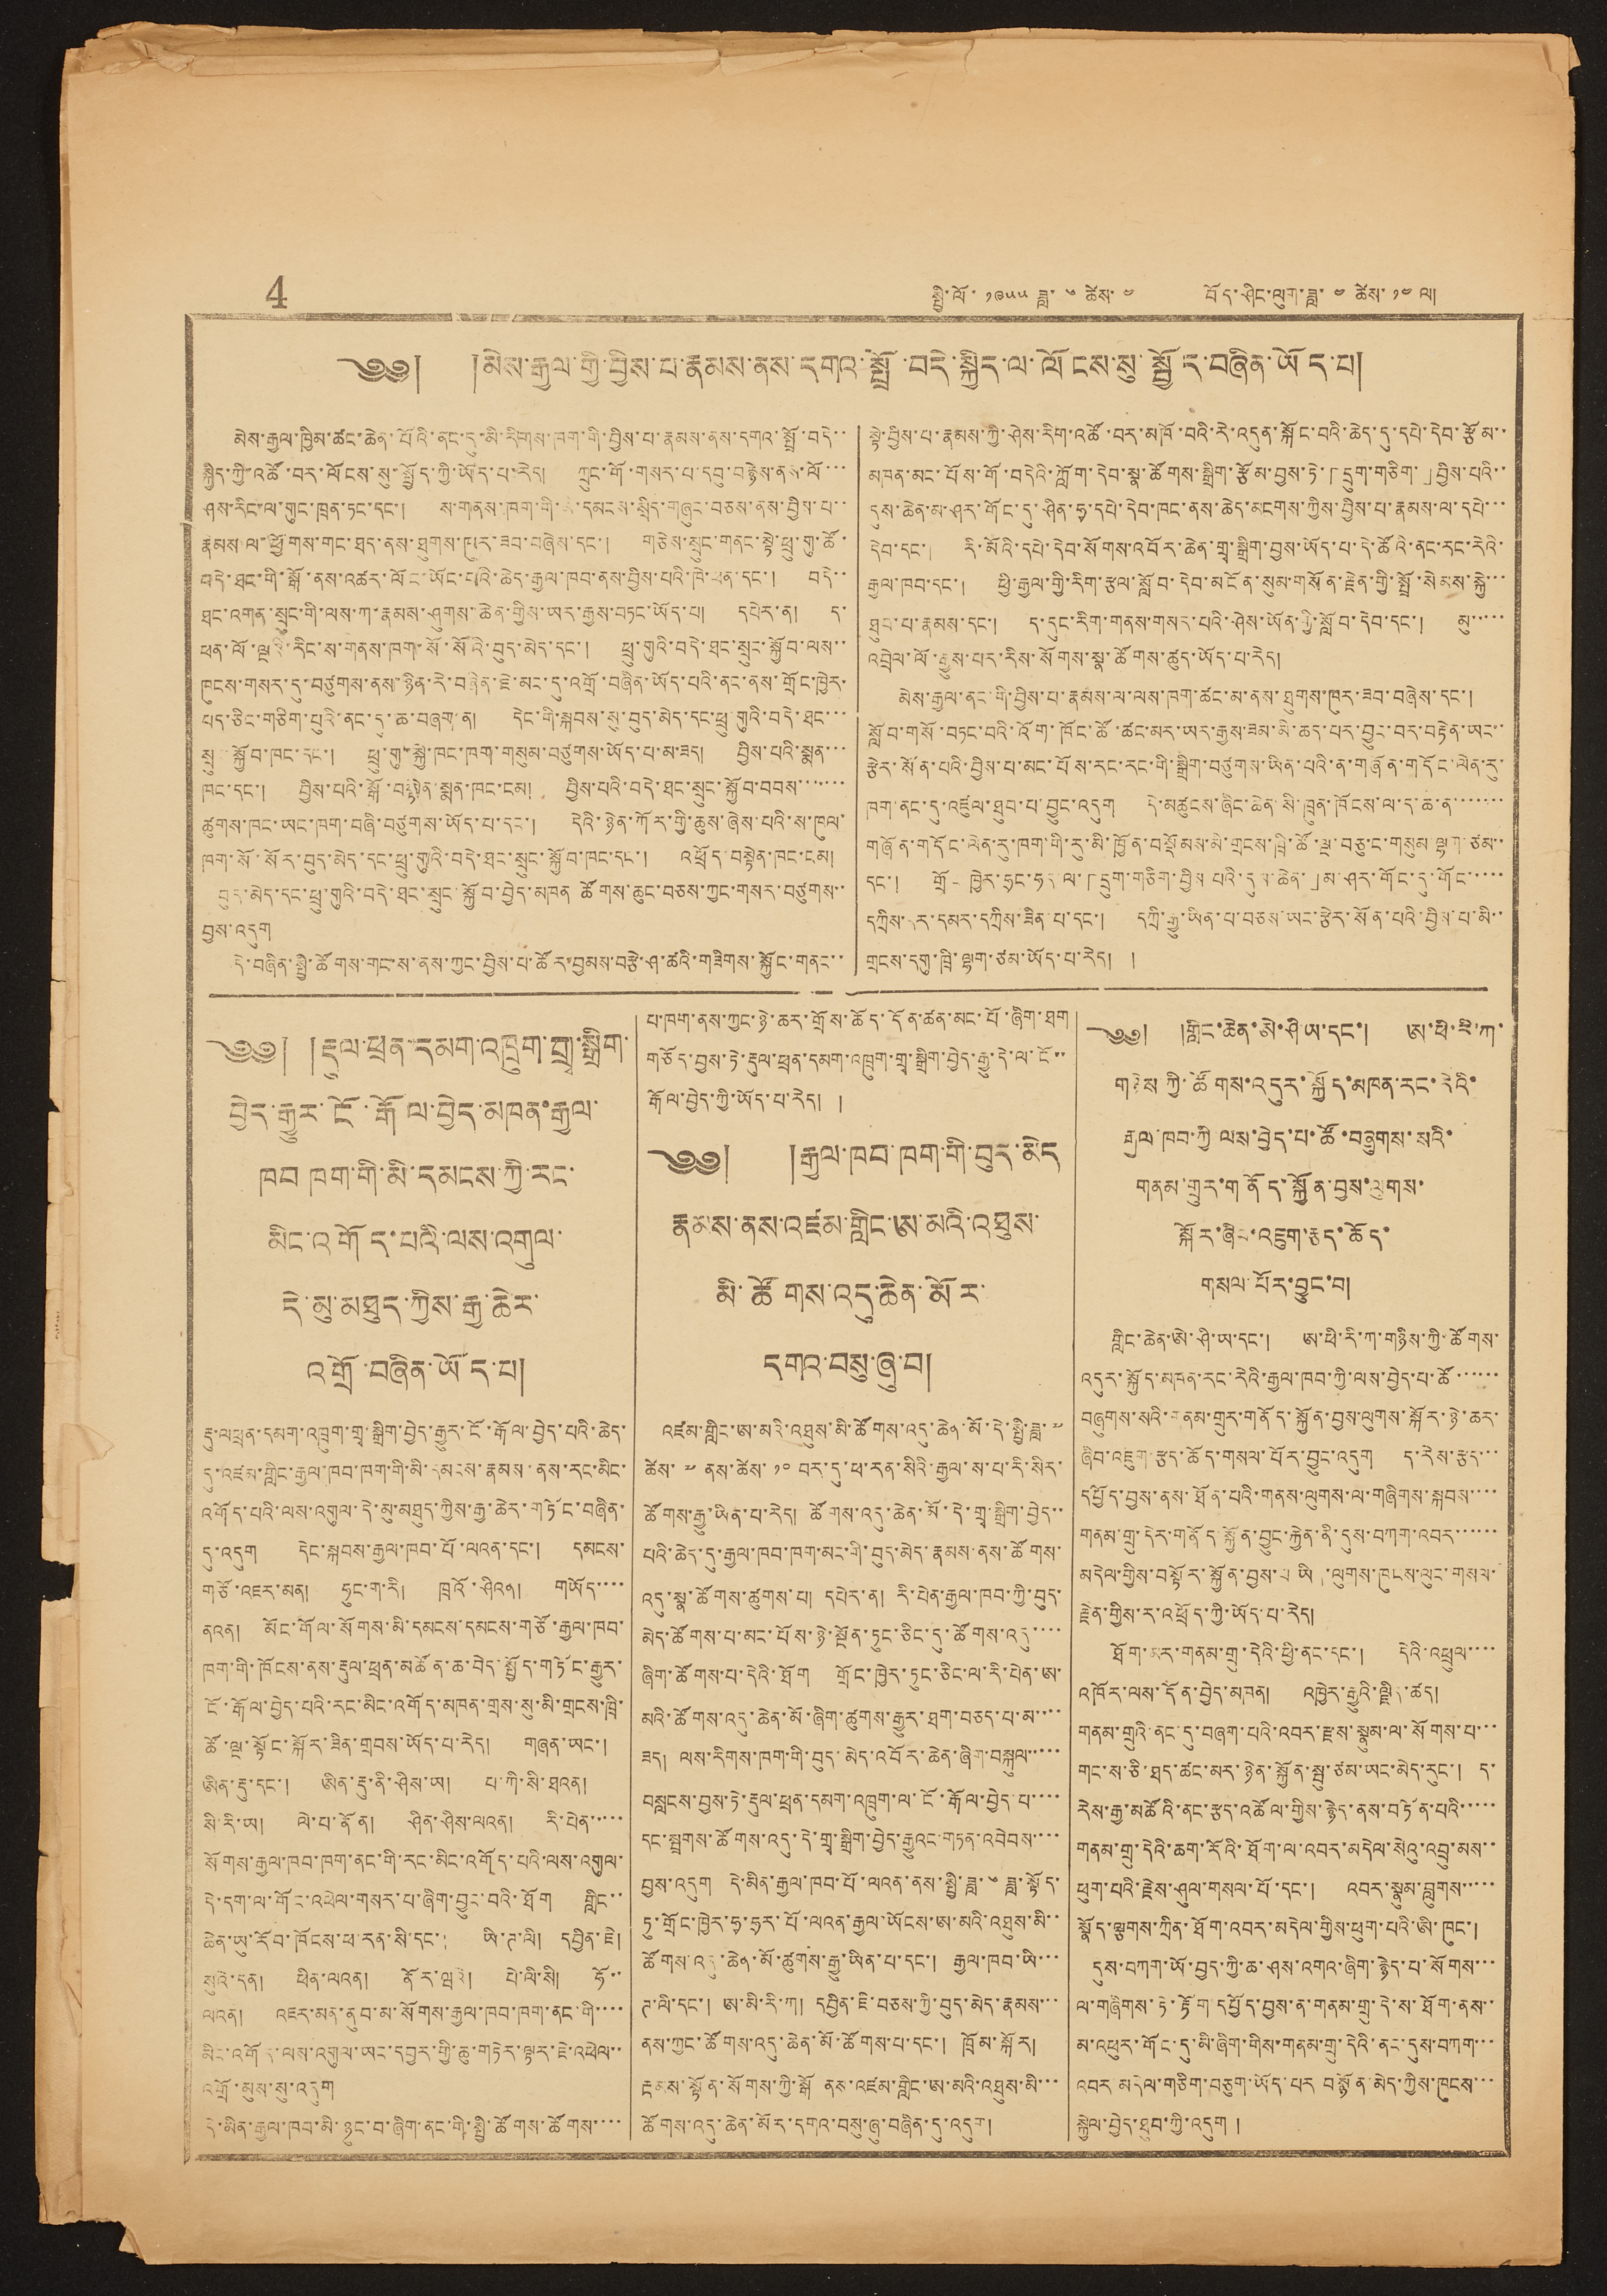4 སྤྱི་ལོ་ ༡༩༥༥ ཟླ་ ༦ ཚེས་ ༤ བོད་ཤིང་ལུག་ཟླ་ ༤ ཚེས་ ༡༤ ལ།
༄༅། །མེས་རྒྱལ་གྱི་བྱིས་པ་རྣམས་ནས་དགའ་སྤྲོ་བདེ་སྐྱིད་ལ་ལོངས་སུ་སྤྱོད་བཞིན་ཡོད་པ།
མེས་རྒྱལ་ཁྱིམ་ཚང་ཆེན་པོའི་ནང་དུ་མི་རིགས་ཁག་གི་བྱིས་པ་རྣམས་ནས་དགའ་སྤྲོ་བདེ་་
སྐྱིད་ཀྱི་འཚོ་བར་ལོངས་སུ་སྤྱོད་ཀྱི་ཡོད་པ་རེད། ཀྲུང་གོ་གསར་པ་དབུ་བརྙེས་ནས་ལོ་་་
ཤས་རིང་ལ་གུང་ཁྲན་ཏང་དང་། ས་གནས་ཁག་གི་མི་དམངས་སྲིད་གཞུང་བཅས་ནས་བྱིས་པ་་
རྣམས་ལ་ཕྱོགས་གང་ཐད་ནས་ཐུགས་ཁུར་ཟབ་གཞེས་དང་། གཅེས་སྲུང་གནང་སྟེ་ཕྲུ་གུ་ཚོ་
བདེ་ཐང་གི་སྒོ་ནས་ལོང་ཡོང་པའི་ཆེད་རྒྱལ་ཁབ་ནས་བྱིས་པའི་ཁེ་ཕན་དང་། བདེ་་
ཐང་འགན་སྲུང་གི་ལས་ཀ་རྣམས་ཤུགས་ཆེན་གྱིས་ཡར་རྒྱས་བཏང་ཡོད་པ། དཔེར་ན། ད་
ཕན་ལོ་ལྔའི་རིང་ས་གནས་ཁག་སོ་སོའི་བུད་མེད་དང་། ཕྲུ་གུའི་བདེ་ཐང་སྲུང་སྐྱོབ་ལས་་
ཁུངས་གསར་དུ་བཙུགས་ནས་ཉིན་རེ་བཞིན་ཇེ་མང་དུ་འགྲོ་བཞིན་ཡོད་པའི་ནང་ནས་གྲོང་ཁྱེར་
པད་ཅིང་གཅིག་པུའི་ནང་དུ་ཆ་བཞག་ན། དེང་གི་སྐབས་སུ་བུད་མེད་དང་ཕྲུ་གུའི་བདེ་ཐང་་་
སྲུང་སྐྱོབ་ཁང་དང་། ཕྲུ་གུ་སྐྱེ་ཁང་ཁག་གསུམ་བཙུགས་ཡོད་པ་མ་ཟད། བྱིས་པའི་སྨན་་་
ཁང་དང་། བྱིས་པའི་སྒོ་བསྟེན་སྨན་ཁང་ངམ། བྱིས་པའི་བདེ་ཐང་སྲུང་སྐྱོབ་བབས་་་་་་་
ཚུགས་ཁང་ཡང་ཁག་བཞི་བཙུགས་ཡོད་པ་དང་། དེའི་ཉེན་ཀོར་གྱི་ཆུས་ཞེས་པའི་ས་ཁུལ་
ཁག་སོ་སོར་བུད་མེད་དང་ཕྲུ་གུའི་བདེ་ཐང་སྲུང་སྐྱོབ་ཁང་དང་། འཕྲོད་བསྟེན་ཁང་ངམ།
བུད་མེད་དང་ཕྲུ་གུའི་བདེ་ཐང་སྲུང་སྐྱོབ་བྱེད་མཁན ཚོགས་ཆུང་བཅས་ཀྱང་གསར་བཙུགས་་
བྱས་འདུག
དེ་བཞིན་སྤྱི་ཚོགས་གང་ས་ནས་ཀྱང་བྱིས་པ་ཚོར་བྱམས་བརྩེ་ཤ་ཚའི་གཟིགས་སྐྱོང་གནང་་
སྟེ་བྱིས་པ་རྣམས་ཀྱི་ཤེས་རིག་འཚོ་བར་མཁོ་བའི་རེ་འདུན་སྐོང་བའི་ཆེད་དུ་དཔེ་དེབ་རྩོམ་་
མཁན་མང་པོས་གོ་བདེའི་ཀློག་དེབ་སྣ་ཚོགས་སྒྲིག་རྩོམ་བྱས་ཏེ་「དྲུག་གཅིག་」བྱིས་པའི་་
དུས་ཆེན་མ་ཤར་གོང་དུ་ཤིན་ཧྭ་དཔེ་དེབ་ཁང་ནས་ཆེད་མངགས་ཀྱིས་བྱིས་པ་རྣམས་ལ་དཔེ་་་
དེབ་དང་། རི་མོའི་དཔེ་དེབ་སོགས་འབོར་ཆེན་གྲྭ་སྒྲིག་བྱས་ཡོད་པ་དེ་ཚོའི་ནང་རང་རེའི་
རྒྱལ་ཁབ་དང་། ཕྱི་རྒྱལ་རིག་རྩལ་སློབ་དེབ་མངོན་སུམ་གསོན་རྗེན་གྱི་སྤྲོ་སེམས་སྐྱེ་་་
ཐུབ་པ་རྣམས་དང་། ད་དུང་རིག་གནས་གསར་པའི་ཤེས་ཡོན་གྱི་སློབ་དེབ་དང་། མུ་་་་་
འབྲེལ་ལོ་རྒྱུས་པར་རིས་སོགས་སྣ་ཚོགས་ཚུད་ཡོད་པ་རེད།
མེས་རྒྱལ་ནང་གི་བྱིས་པ་རྣམས་ལ་ལས་ཁག་ཚང་མ་ནས་ཐུགས་ཁུར་ཟབ་བཞེས་དང་།
སློབ་གསོ་བཏང་བའི་འོག་ཁོང་ཚོ་ཚང་མར་ཡར་རྒྱས་ཟམ་མི་ཆད་པར་བྱུང་བར་བརྟེན་ཡང་་
རྩེར་སོན་པའི་བྱིས་པ་མང་པོས་རང་རང་གི་སྒྲིག་བཙུགས་ཡིན་པའི་ན་གཞོན་གདོང་ལེན་རུ་
ཁག་ནང་དུ་འཛུལ་ཐུབ་པ་བྱུང་འདུག དེ་མཚུངས་ཞིང་ཆེན་སི་ཁྲུན་ཁོངས་ལ་ད་ཆ་ན་་་་་་་
གཞོན་གདོང་ལེན་རུ་ཁག་གི་རུ་མི་ཁྱོན་བསྡོམས་མི་གྲངས་ཁྲི་ཚོ་ལྔ་བཅུ་ང་གསུམ་ལྷག་ཙམ་་
དང་། གྲོང་ཁྱེར་ཧྲང་ཧད་ལ་「དྲུག་གཅིག་བྱིས་པའི་དུས་ཆེན་」མ་ཤར་གོང་དུ་གོང་་་་་
དཀྲིས་དར་དམར་དཀྲིས་ཟིན་པ་དང་། དཀྲི་རྒྱུ་ཡིན་པ་བཅས་ཡང་རྩེར་སོན་པའི་བྱིས་པ་མི་་
གྲངས་དགུ་ཁྲི་ལྷག་ཙམ་ཡོད་པ་རེད། །
༄༅། །རྡུལ་ཕྲན་དམག་འཁྲུག་གྲྭ་སྒྲིག་
བྱེད་རྒྱུར་ངོ་རྒོལ་བྱེད་མཁན་རྒྱལ་
ཁབ ཁག་གི་མི་དམངས་ཀྱི་རང་
མིང་འགོད་པའི་ལས་འགུལ་
དེ་མུ་མཐུད་ཀྱིས་རྒྱ་ཆེར་
འགྲོ་བཞིན་ཡོད་པ།
རྡུ་ལཕྲན་དམག་འཁྲུག་གྲྭ་སྒྲིག་བྱེད་རྒྱུར་ངོ་རྒོལ་བྱེད་པའི་ཆེད་
དུ་འཛམ་གླིང་རྒྱལ་ཁབ་ཁག་གི་མི་དམངས་རྣམས་ནས་རང་མིང་
འགོད་པའི་ལས་འགུལ་དེ་མུ་མཐུད་ཀྱིས་རྒྱ་ཆེར་གཏོང་བཞིན་
དུ་འདུག དེང་སྐབས་རྒྱལ་ཁབ་པོ་ལའན་དང་། དམངས་
གཙོ་འཇར་མན། ཧུང་ག་རི། ཁྲའོ་ཤིའན། གཡོད་་་་
ནའན། མོང་གོལ་སོགས་མི་དམངས་དམངས་གཙོ་རྒྱལ་ཁབ་
ཁག་གི་ཁོངས་ནས་རྡུལ་ཕྲན་མཚོན་ཆ་བེད་སྤྱོད་གཏོང་རྒྱུར་
ངོ་རྒོལ་བྱེད་པའི་རང་མིང་འགོད་མཁན་གྲས་སུ་མི་གྲངས་ཁྲི་
ཚོ་ལྔ་སྟོང་སྐོར་ཟིན་གྲབས་ཡོད་པ་རེད། གཞན་ཡང་།
ཨིན་རྡུ་དང་། ཨིན་རྡུ་ནི་ཤིས་ཡ། པ་ཀི་སི་ཐའན།
སི་རི་ཡ། ལེ་པ་ནོན། ཤིན་ཤིས་ལའན། རི་པེན་་་་་
སོགས་རྒྱལ་ཁབ་ཁག་ནང་གི་རང་མིང་འགོད་པའི་ལས་འགུལ་
དེ་དག་ལ་གོང་འཕེལ་གསར་པ་ཞིག་བྱུང་བའི་ཐོག གླིང་་
ཆེན་ཡུ་རོབ་ཁོངས་ཕ་རན་སི་དང་། ཡི་ཊ་ལི། དབྱིན་ཇི།
སུའེ་དན། ཕིན་ལའན། ནོར་ཝའི། པེ་ལི་སི། ཧོ་་
ལའན། འཇར་མན་ནུབ་མ་སོགས་རྒྱལ་ཁབ་ཁག་ནང་གི་་་་
མིང་འགོད་ལས་འགུལ་ཡང་དབྱར་གྱི་ཆུ་གཏེར་ལྟར་ཇེ་འཕེལ་་
འགྲོ་མུས་སུ་འདུག
དེ་མིན་རྒྱལ་ཁབ་མི་ཉུང་བ་ཞིག་ནང་གི་སྤྱི་ཚོགས་ཚོགས་་་་
པ་ཁག་ནས་ཀྱང་ཉེ་ཆར་གྲོས་ཆོད་དོན་ཚན་མང་པོ་ཞིག་ཐག
གཅོད་བྱས་ཏེ་རྡུལ་ཕྲན་དམག་འཁྲུག་གྲྭ་སྒྲིག་བྱེད་རྒྱུ་དེ་ལ་ངོ་་
རྒོལ་བྱེད་ཀྱི་ཡོད་པ་རེད། །
༄༅། །རྒྱལ་ཁབ་ཁག་གི་བུད་མེད
རྣམས་ནས་འཛམ་གླིང་ཨ་མའི་འཐུས་
མི་ཚོགས་འདུ་ཆེན་མོར་
དགའ་བསུ་ཞུ་བ།
འཛམ་གླིང་ཨ་མའི་འཐུས་མི་ཚོགས་འདུ་ཆེན་མོ་དེ་སྤྱི་ཟླ་ ༧
ཚེས་ ༧ ནས་ཚེས་ ༡༠ བར་དུ་ཕ་རན་སིའི་རྒྱལ་ས་པ་རི་སིར་
ཚོགས་རྒྱུ་ཡིན་པ་རེད། ཚོགས་འདུ་ཆེན་མོ་དེ་གྲྭ་སྒྲིག་བྱེད་་
པའི་ཆེད་དུ་རྒྱལ་ཁབ་ཁག་མང་གི་བུད་མེད་རྣམས་ནས་ཚོགས་
འདུ་སྣ་ཚོགས་ཚུགས་པ། དཔེར་ན། རི་པེན་རྒྱལ་ཁབ་ཀྱི་བུད་
མེད་ཚོགས་པ་མང་པོས་ཉེ་སྔོན་ཏུང་ཅིང་དུ་ཚོགས་འདུ་་་་
ཞིག་ཚོགས་པ་དེའི་ཐོག གྲོང་ཁྱེར་ཏུང་ཅིང་ལ་རི་པེན་ཨ་
མའི་ཚོགས་འདུ་ཆེན་མོ་ཞིག་ཚུགས་རྒྱུར་ཐག་བཅད་པ་མ་་་
ཟད། ལས་རིགས་ཁག་གི་བུད་མེད་འབོར་ཆེན་ཞིག་བསྐུལ་་་་་
བསླངས་བྱས་ཏེ་རྡུལ་ཕྲན་དམག་འཁྲུག་ལ་ངོ་རྒོལ་བྱེད་པ་་་་
དང་སྦྲགས་ཚོགས་འདུ་དེ་གྲྭ་སྒྲིག་བྱེད་རྒྱུའང་གཏན་འབེབས་་་་
བྱས་འདུག དེ་མིན་རྒྱལ་ཁབ་པོ་ལའན་ནས་སྤྱི་ཟླ་ ༦ ཟླ་སྟོད་
ཏུ་གྲོང་ཁྱེར་ཧྭ་ཧྲར་པོ་ལའན་རྒྱལ་ཡོངས་ཨ་མའི་འཐུས་མི་་
ཚོགས་འདུ་ཆེན་མོ་ཚུགས་རྒྱུ་ཡིན་པ་དང་། རྒྱལ་ཁབ་ཡི་་་
ཊ་ལི་དང་། ཨ་མི་རི་ཀ། དབྱིན་ཇི་བཅས་ཀྱི་བུད་མེད་རྣམས་་་
ནས་ཀྱང་ཚོགས་འདུ་ཆེན་མོ་ཚོགས་པ་དང་། ཁྲོམ་སྐོར།
རྔམས་སྟོན་སོགས་ཀྱི་སྒོ ནས་འཛམ་གླིང་ཨ་མའི་འཐུས་མི་་་
ཚོགས་འདུ་ཆེན་མོར་དགའ་བསུ་ཞུ་བཞིན་དུ་འདུག།
༄༅། །གླིང་ཆེན་ཨེ་ཤི་ཡ་དང་། ཨ་ཕི་རི་ཀ་
གཉིས་ཀྱི་ཚོགས་འདུར་སྐྱོད་མཁན་རང་རེའི་
རྒྱལ་ཁབ་ཀྱི ལས་བྱེད་པ་ཚོ་བཞུགས་སའི་
གནམ་གྲུར་གནོད་སྐྱོན་བྱས་ལུགས་
སྐོར་ཞིབ་འཇུག་རྩད་ཆོད་
གསལ་པོར་བྱུང་བ།
གླིང་ཆེན་ཨེ་ཤི་ཡ་དང་། ཨ་ཕི་རི་ཀ་གཉིས་ཀྱི་ཚོགས་
འདུར་བསྐྱོད་མཁན་རང་རེའི་རྒྱལ་ཁབ་ཀྱི་ལས་བྱེད་པ་ཚོ་་་་་་་
བཞུགས་སའི་གནམ་གྲུར་གནོད་སྐྱོན་བྱས་ལུགས་སྐོར་ཉེ་ཆར་
ཞིབ་འཇུག་རྩད་ཆོད་གསལ་པོར་བྱུང་འདུག ད་རེས་རྩད་་་
དཔྱོད་བྱས་ནས་ཐོན་པའི་གནས་ལུགས་ལ་གཞིགས་སྐབས་་་་
གནམ་གྲུ་དེར་གནོད་སྐྱོན་བྱུང་རྐྱེན་ནི་དུས་བཀག་འབར་་་་་་
མདེལ་གྱིས་བསྟོར་སྐྱོན་བྱས་པ་ཡིན་ལུགས་ཁུངས་ལུང་གསལ་
རྗེན་གྱིས་ར་འཕྲོད་ཀྱི་ཡོད་པ་རེད།
ཐོག་མར་གནམ་གྲུ་དེའི་ཕྱི་ནང་དང་། དེའི་འཕྲུལ་་་་
འཁོར་ལས་དོན་བྱེད་མཁན། འཁྱེར་རྒྱུའི་ལྗིད་ཚད།
གནམ་གྲུའི་ནང་དུ་བཞག་པའི་འབར་རྫས་སྣུམ་ལ་སོགས་པ་་་
གང་ས་ཅི་ཐད་ཚང་མར་ཉེན་སྐྱོན་སྤུ་ཙམ་ཡང་མེད་རུང་། ད་
རེས་རྒྱ་མཚོའི་ནང་རྩད་འཚོལ་གྱིས་རྙེད་ནས་བཏོན་པའི་་་་་
གནམ་གྲུ་དེའི་ཆག་རོའི་ཐོག་ལ་འབར་མདེལ་སེའུ་འབྲུ་མས་་
ཕུག་པའི་རྗེས་ཤུལ་གསལ་པོ་དང་། འབར་སྣུམ་བླུགས་་་་་
སྣོད་ལྕགས་ཀྲིན་ཐོག་འབར་མདེམ་གྱིས་ཕུག་པའི་ཨི་ཁུང་།
དུས་བཀག་ཡོ་བྱད་ཀྱི་ཆ་ཤས་འགའ་ཞིག་རྙེད་པ་སོགས་་་
ལ་གཞིགས་ཏེ་རྟོག་དཔྱོད་བྱས་ན་གནམ་གྲུ་དེ་ས་ཐོག་ནས་་
མ་འཕུར་གོང་དུ་མི་ཞིག་གིས་གནམ་གྲུ་དེའི་ནང་དུས་བཀག་་་
འབར་མདེལ་གཅིག་བཅུག་ཡོད་པར བསྙོན་མེད་ཀྱིས་ཁུངས་་་
སྐྱེལ་བྱེད་ཐུབ་ཀྱི་འདུག །
